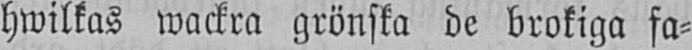hwilkas wackra grönska de brokiga fa-
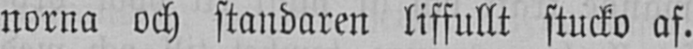norna och standaren liffullt stucko af.
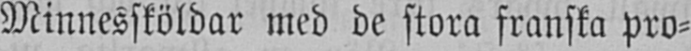Minnessköldar med de stora franska pro-
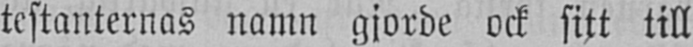testanternas namn gjorde ock sitt till
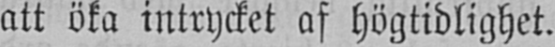att öka intrycket af högtidlighet.
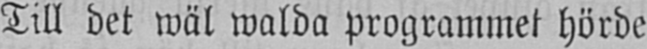Till det wäl walda programmet hörde
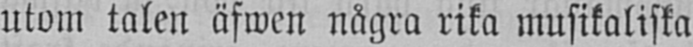utom talen äfwen några rika musikaliska
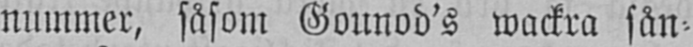nummer, såsom Gounod's wackra sån-
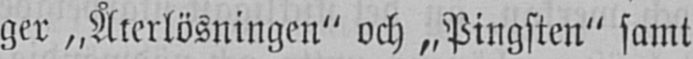ger "Återlösningen" och "Pingsten" samt
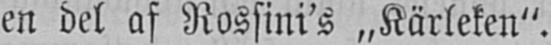en del af Rossini's „Kärleken".
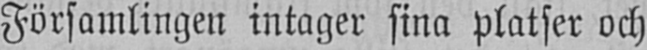Församlingen intager sina platser och
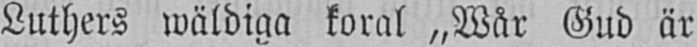Luthers wäldiga koral „Wår Gud är
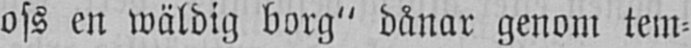oss en wäldig borg" dånar genom tem-
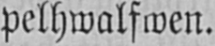pelhwalfwen.
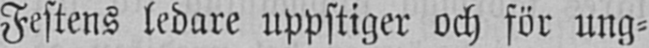Festens ledare uppstiger och för ung-
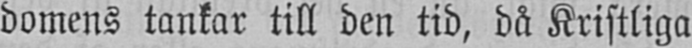domens tankar till den tid, då Kristliga
